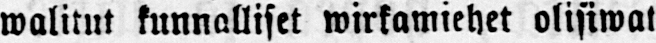walitut kunnalliset wirkamiehet olisiwat
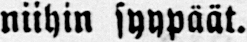niihin syypäät.
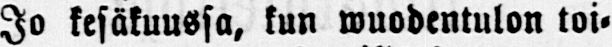Jo kesäkuussa, kun wuodentulon toi-
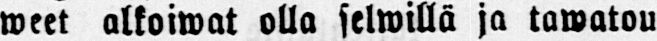weet alkoiwat olla selwillä ja tawatou
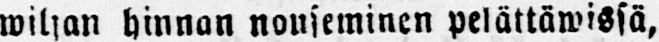wiljan hinnan nouseminen pelättäwissä,
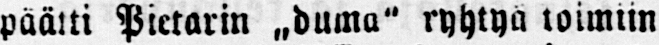päätti Pietarin „duma" ryhtyä toimiin
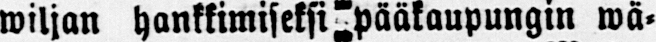wiljan hankkimiseksi pääkaupungin wä-
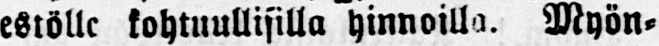estölle kohtuullisilla hinnoilla. Myön-
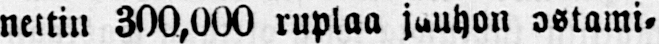nettin 300,000 ruplaa jauhon ostami-
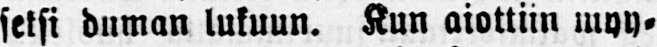seksi duman lukuun. Kun aiottiin myy-
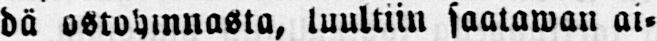dä ostohinnasta, luultiin säätäwän ai-
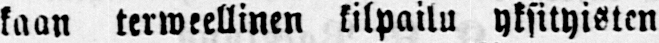kaan terweellinen kilpailu yksityisten
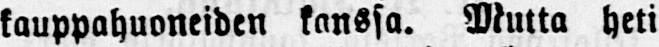kauppahuoneiden kanssa. Mutta heti
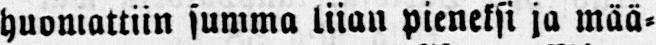huomattiin summa liian pieneksi ja mää-
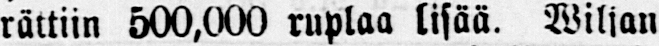rättiin 500,000 ruplaa lisää. Wiljan
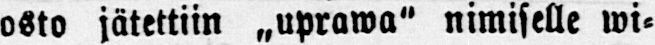osto jätettiin „uprawa" nimiselle wi-
